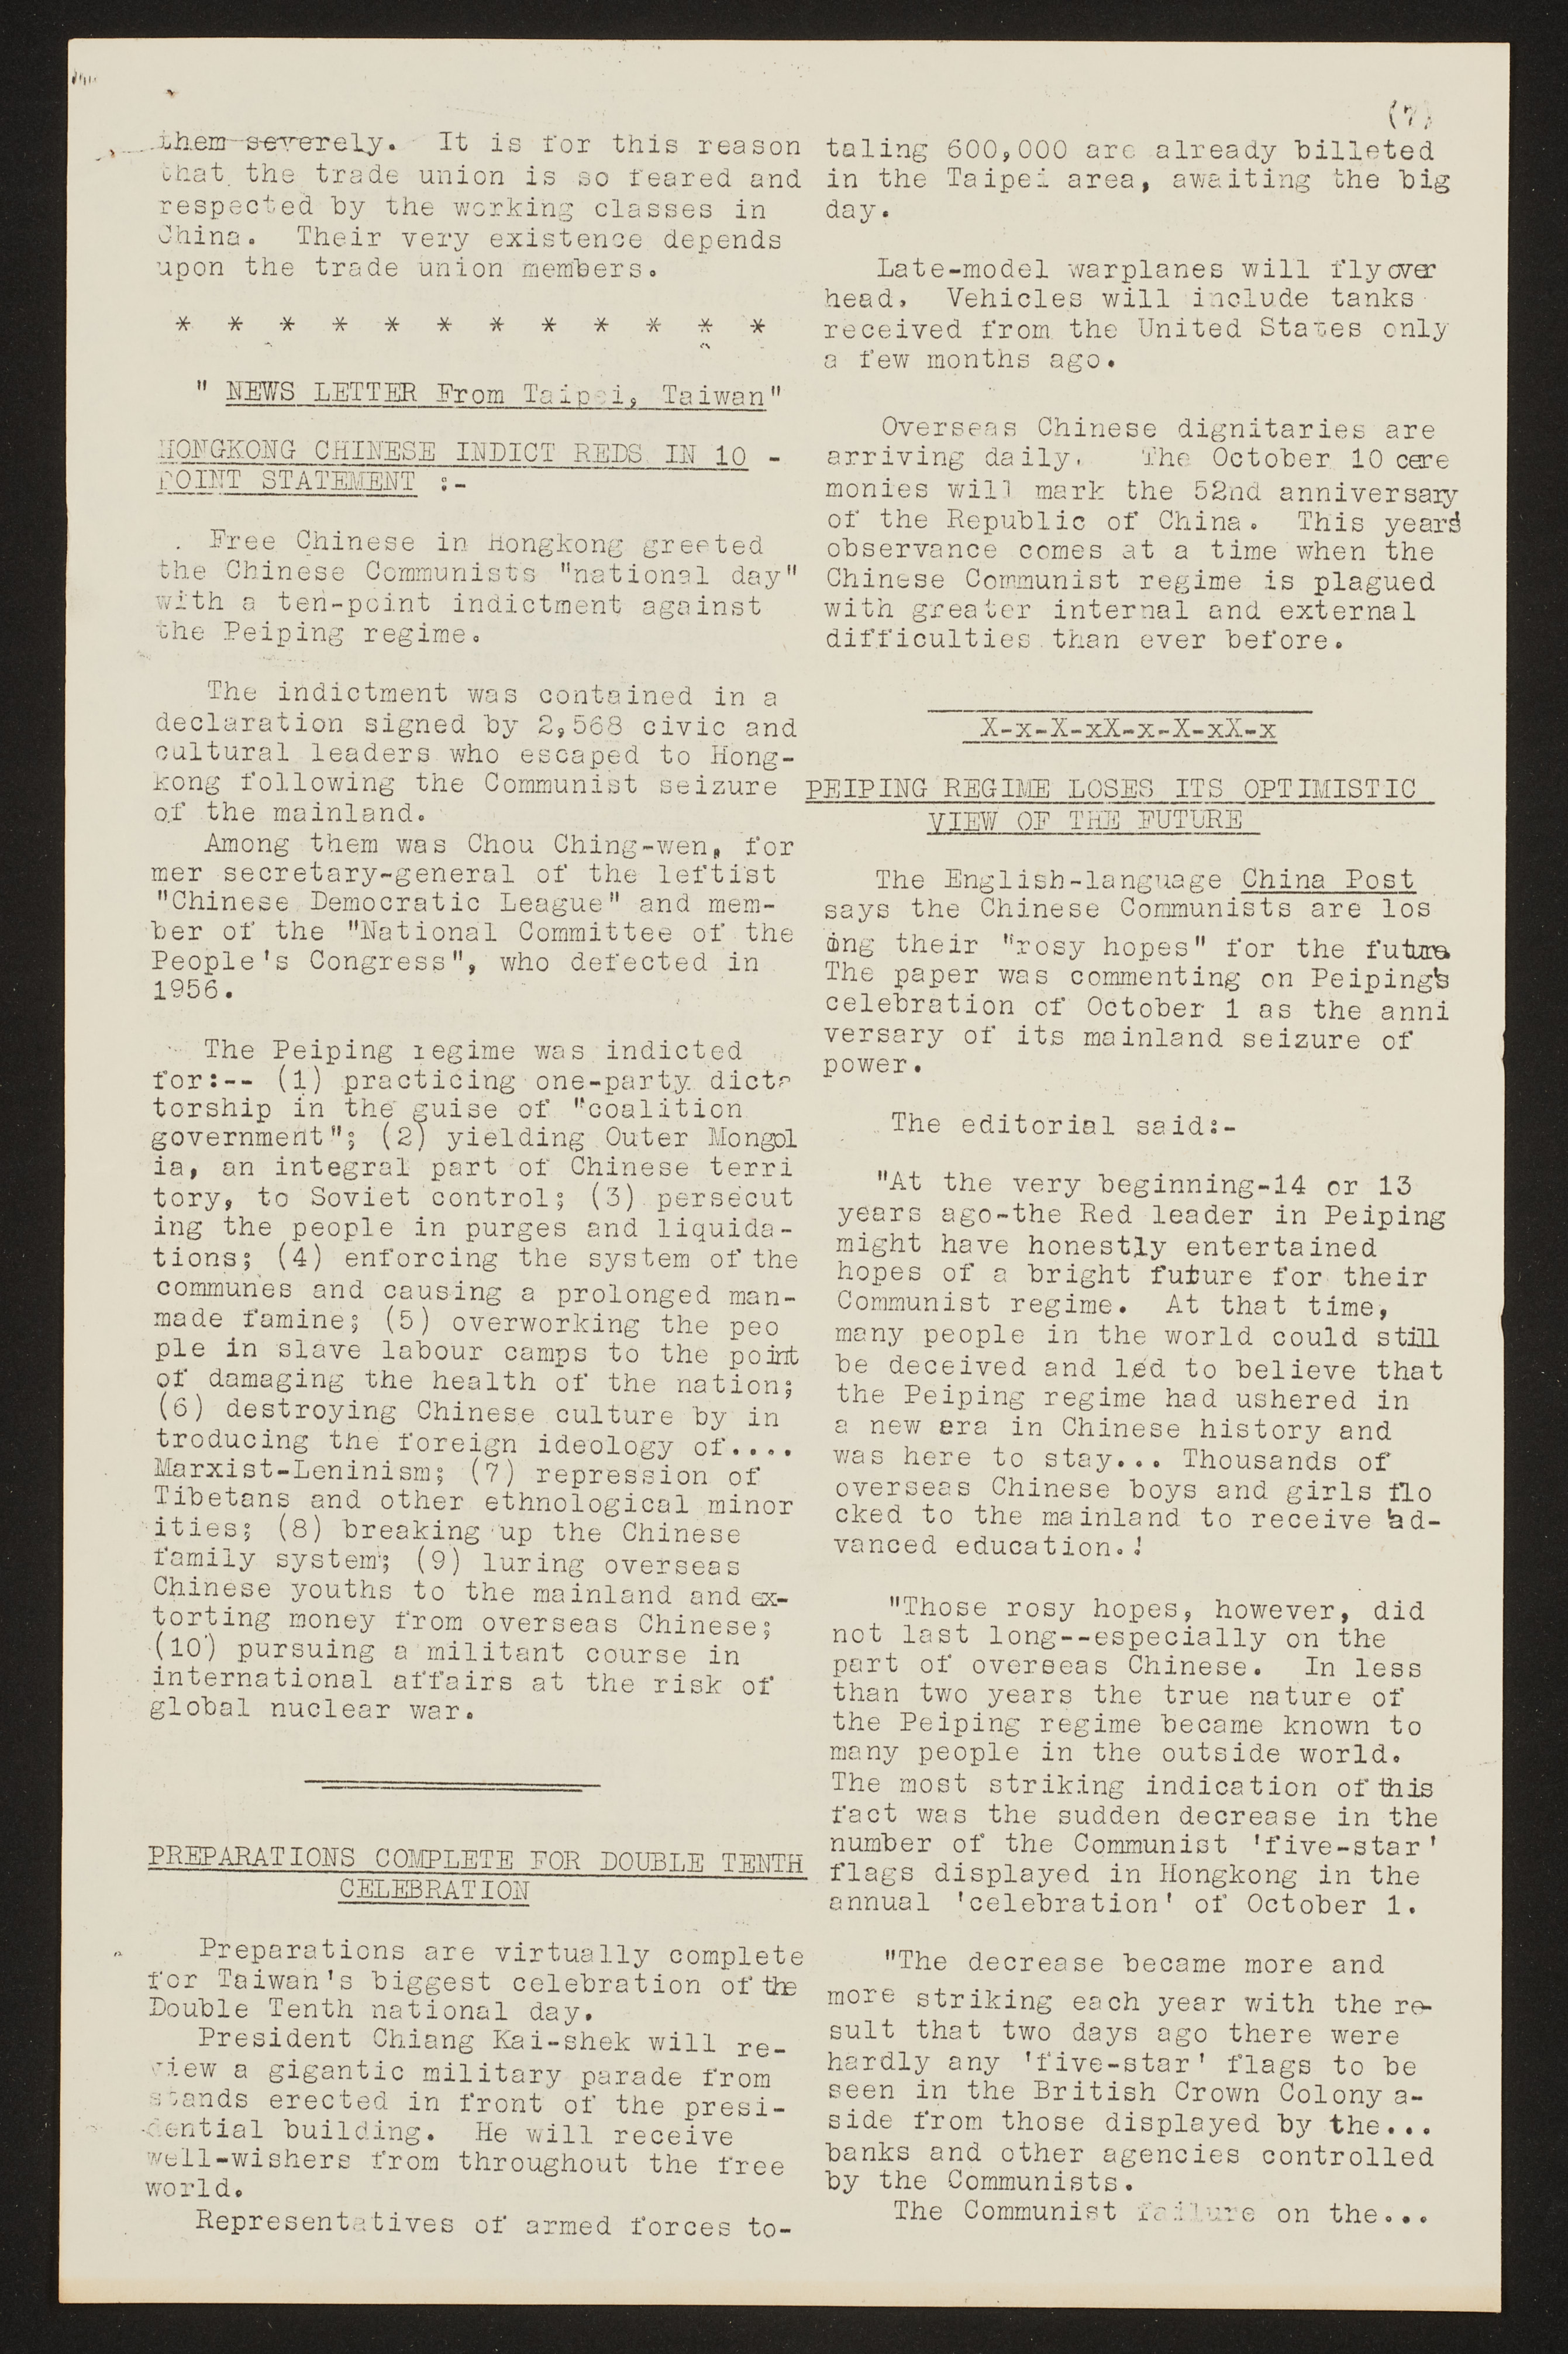(7)
them severely. It is for this reason
hat the trade union is so feared and
respected by the working classes in
China. Their very existence depends
upon the trade union members.
" NEWS LETTER From Taip i Taiwan"
HONGKONG CHINESE INDICT REDS IN 10 -
POINT STATEMENT :-
Free Chinese in Hongkong greeted
the Chinese Communists "national day"
with a ten-point indictment against
the Peiping regime.
The indictment was contained in
declaration signed by 2,568 civic and
cultural leaders who escaped to Hong-
kong following the Communist seizure
of the mainland.
Among them was Chou Chin-wen, for
mer secretary-general of the leftist
"Chinese Democratic League" and mem-
ber of the "National Committee of the
People's Congress", who defected in
1956.
The Peiping regime was indicted
for:-- (1) practising one-party dicta
torship in the guise of "coalition
government"; (2) yielding outer Mongol
ia, an integral part of Chinese terri
tory, to Soviet control; (3) persecut
ing the people in purges and liquida-
tions; (4) enforcing the system of the
communes and causing a prolonged man-
made famine; (5) overworking the peo
ple in slave labour camps to the point
of damaging the health of the nation;
6) destroying Chinese culture by in
troducing the foreign ideology of ....
Marxist-Leninism; (7) repression of
Tibetans and other ethnological minor
ities; (8) breaking up the Chinese
amily system; (9) luring overseas
Chinese youths to the mainland and ex-
torting money from overseas Chinese;
(10) pursuing militant course in
international affairs at the risk of
global nuclear war.
Overseas Chinese dignitaries are
arriving daily. The October 10 cere
monies will mark the 52nd anniversary
of the Republic of China. This years
observance comes at a time when the
Chinese Communist regime is plagued
with greater internal and external
difficulties than ever before.
PEIPING REGIME LOSES ITS OPTIMISTIC
VIEW OF THE FUTURE
English-language China Post
says the Chinese Communists are los
ing their "rosy hopes" for the future.
The paper was commenting on Peiping's
celebration of October 1 as the anni
versary of its mainland seizure of
power.
The editorial said:
"At the very beginning-14 or 13
years ago-the Red leader in Peiping
might have honestly entertained
hopes es of a bright future for their
Communist regime. At that time,
many people in the world could still
be deceived and led to believe that
regime had ushered in
a new era in Chinese history and
was here to stay... Thousands of
overseas Chinese boys and girls fo
cked to the mainland to receive 'ad-
vanced education.'
PREPARATIONS COMPLETE FOR DOUBLE TENTH
CELEBRATION
Preparations are virtually complete
for Taiwan's biggest celebration of the
Double Tenth national day.
President Chiang Kai-shek will re-
view a gigantic military parade from
stands erected in front of the presi-
dential building. He will receive
well-wishers from throughout the free
world.
"Those rosy hopes, however, did
not last long--especially on the
part of overseas Chinese. In less
than two years the true nature of
the Peiping regime became known to
many people in the outside world
The most striking indication of this
fact was the sudden decrease in the
number of the Communist 'five-star'
flags displayed in Hongkong in the
annual 'celebration' of October 1.
Representatives of armed forces to-
taling 600,000 are already billeted
in the Taipe area, awaiting the big
day.
Late model warplanes will flover
head. Vehicles will include tanks
received from the United States only
a few months ago.
"The decrease became more and
more striking each year with the re-
sult that two days ago there were
hardly any five star flags to be
seen in the British Crown Colony a-
side from those displayed by the...
banks and other agencies controlled
by the Communists.
The Communist failure on the
